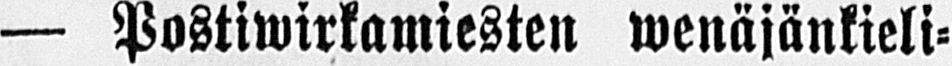— Postiwirkamiesten wenäjänkieli-
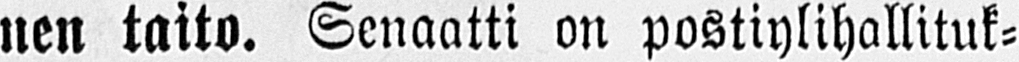nen taito. Senaatti on postiylihallituk-
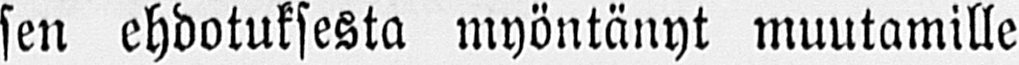sen ehdotuksesta myöntänyt muutamille
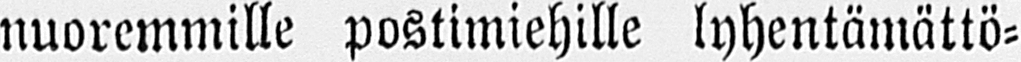nuoremmille postimiehille lyhentämättö-
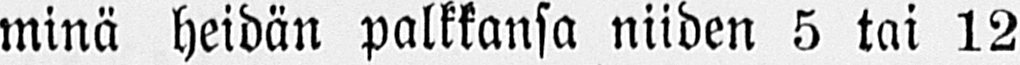minä heidän palkkansa niiden 5 tai 12
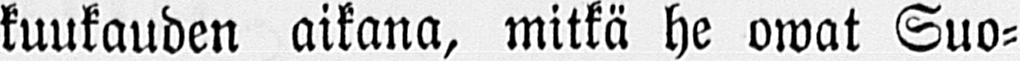kuukauden aikana, mitkä he owat Suo-
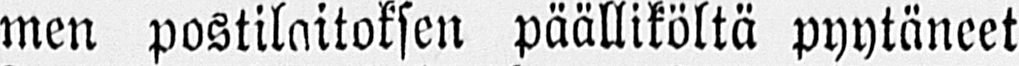men postilaitoksen päälliköltä pyytäneet
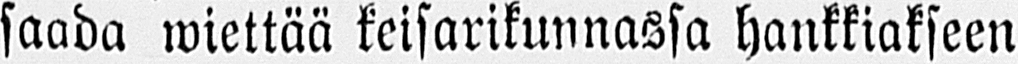saada wiettää keisarikunnassa hankkiakseen
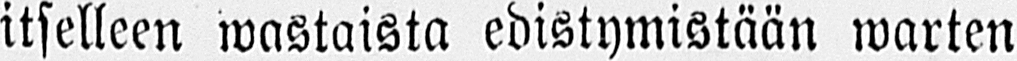itselleen wastaista edistymistään warten
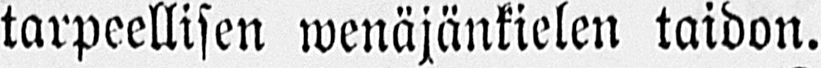tarpeellisen wenäjänkielen taidon.
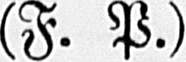(F. P.)
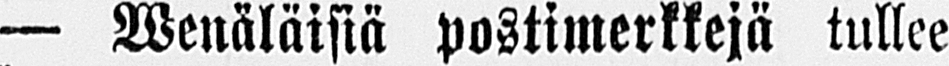— Wenäläisiä postimerkkejä tullee
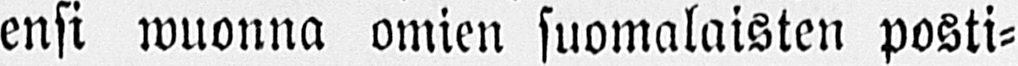ensi wuonna omien suomalaisten posti-
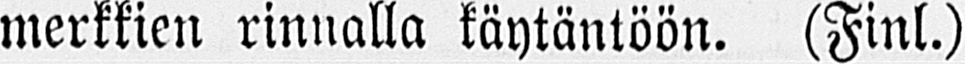merkkien rinnalla käytäntöön. (Finl.)
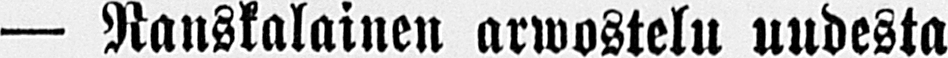— Ranskalainen arwostelu uudesta
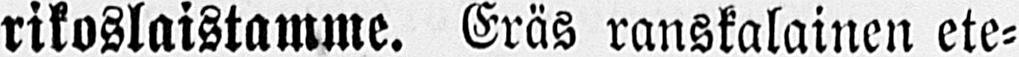rikoslaistamme. Eräs ranskalainen ete-
